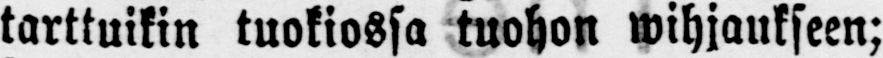tarttuikin tuokiossa tuohon wihjaukseen;
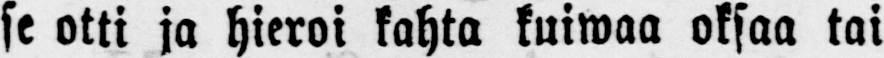se otti ja hieroi kahta kuiwaa oksaa tai
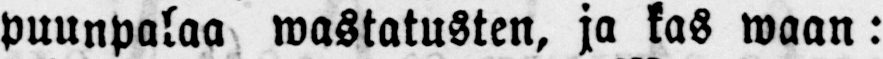puunpalaa wastatusten, ja kas waan:
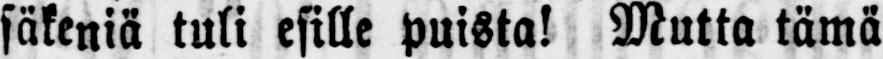säkeniä tuli esille puista! Mutta tämä
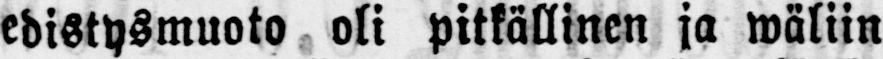edistysmuoto oli pitkällinen ja wäliin
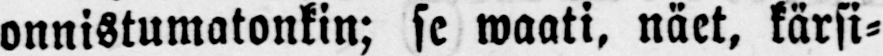onnistumatonkin; se waati, näet, kärsi-
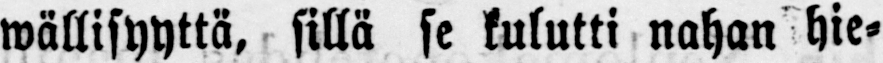wällisyyttä, sillä se kulutti nahan hie-
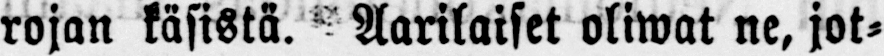rojan käsistä. Aarilaiset oliwat ne, jot-
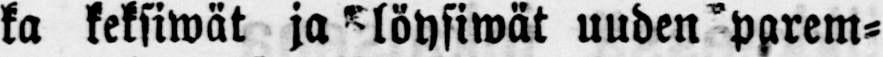ka keksiwät ja löysiwät uuden parem-
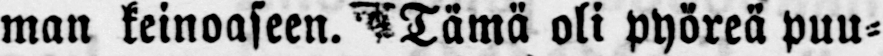man keinoaseen. Tämä oli pyöreä puu-
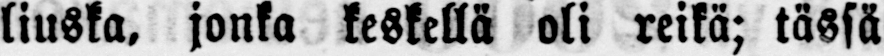liuska. jonka keskellä oli reikä; tässä
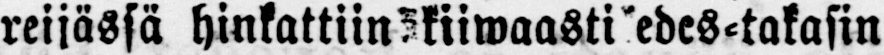reijässä hinkattiin kiiwaasti edes-takasin
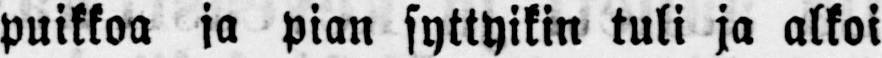puikkoa ja pian syttyikin tuli ja alkoi
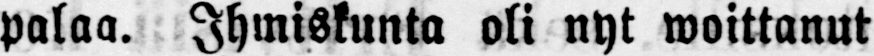palaa. Ihmiskunta oli nyt woittanut
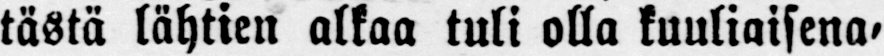tästä lähtien alkaa tuli olla kuuliaisena
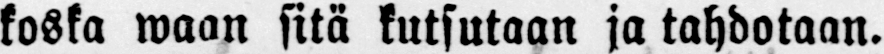koska waan sitä kutsutaan ja tahdotaan.
